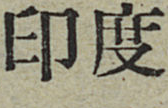印度
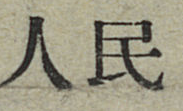人民
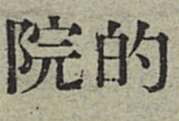院的
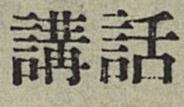講話
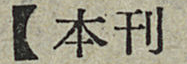【本刊
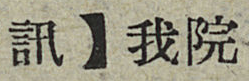訊】我院
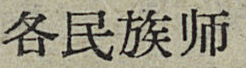各民族师
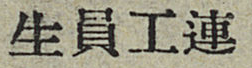生員工連
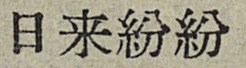日来紛紛
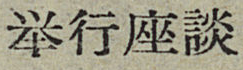举行座談
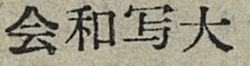会和写大
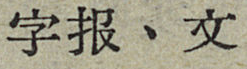字报、文
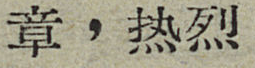章，热烈
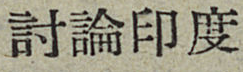討論印度
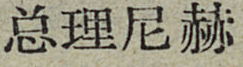总理尼赫
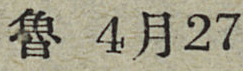魯4月27
